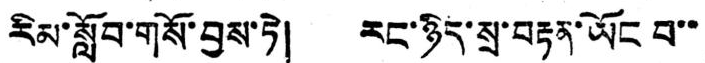རིམ་སློབ་གསོ་བྱས་ཏེ། རང་ཉིས་སྲ་བརྟེན་ཡོང བ་་
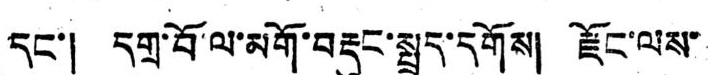དང་། དགྲ་བོ་ལ་མགོ་བརྡུང་སྤྲད་དགོས། རྫོང་ལས་
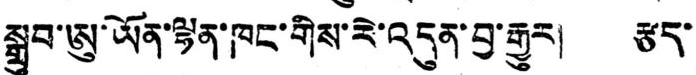སྒྲུབ་ཨུ་ཡོན་ལྷན་ཁང་གིས་རེ་འདུན་བྱ་རྒྱུར། རྩད་
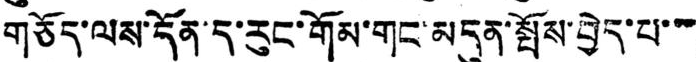གཅོད་ལས་དོན་ད་རུང་གོམ་གང་མདུན་སྤོས་བྱེད་པ་་་
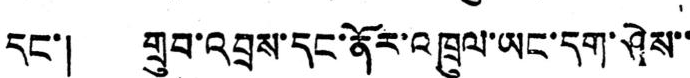དང་། གྲུབ་འབྲས་དང་ནོར་འཁྲུལ་ཡང་དག་ཤེས་་
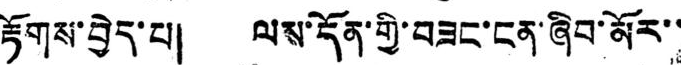རྟོགས་བྱེད་པ། ལས་དོན་གྱི་བཟང་ངན་ཞིབ་མོར་་
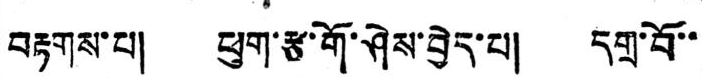བརྟགས་པ། ཕུག་རྩ་གོ་ཤེས་བྱེད་པ། དགྲ་བོ་་
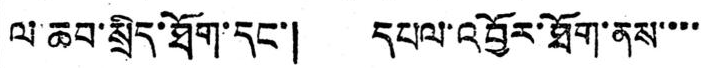ལ་ཆབ་སྲིད་ཐོག་དང་། དཔལ་འབྱོར་ཐོག་ནས་་་་
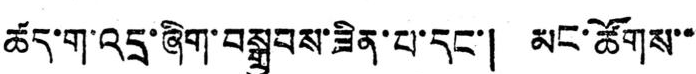ཚད་ག་འདྲ་ཞིག་བསྒྲུབས་ཟིན་པ་དང་། མང་ཚོགས་་
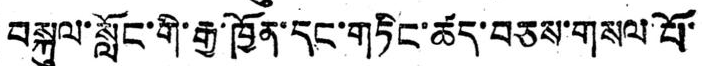བསྐུལ་སློང་གི་རྒྱ་ཁྱོན་དང་གཏིང་ཚད་བཅས་གསལ་པོ་
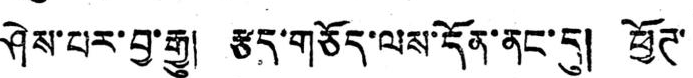ཤེས་པར་བྱ་རྒྱུ། རྩད་གཅོད་ལས་དོན་ནང་དུ། ཕྱོཊ་
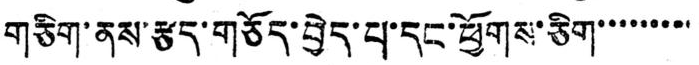གཅིག་ནས་རྩད་གཅོད་བྱེད་པ་དང་ཕྱོགས་ཅིག་་་་་་་་་
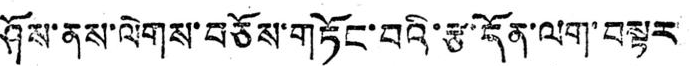ཤོས་ནས་ལེགས་བཅོས་གཏོང་བའི་རྩ་དོན་ལག་བསྟར
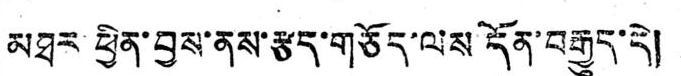མཐར་ཕྱིན་བྱས་ནས་རྩད་གཅོད་ལས དོན་བརྒྱུད་དེ།
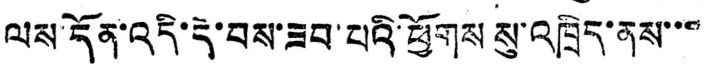ལས་དོན་འདི་དེ་བས་ཟབ་པའི་ཕྱོགས སུ་འཁྲིད་ནས་་་་
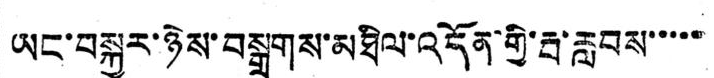ཡང་བསྐྱར་ཉེས་བསྒྲགས་མཐིལ་འདོན་གྱི་རྦ་རླབས་་་་་
